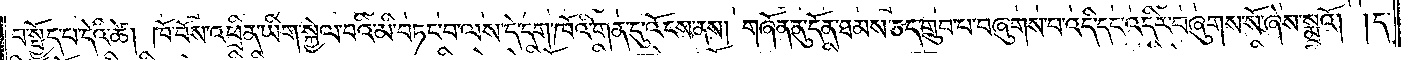བ་སྤྱོད་པ་དེའི་ཚེ། ཁོ་བོས་འཕྲིན་ཡིག་སྐྱེལ་བའི་མི་བཏང་བ་ལས་དེ་དག་ཁོའི་གན་དུ་འོངས་ནས། གཞོན་ནུ་དོན་ཐམས་ཅད་གྲུབ་པ་བཞུགས་པ་འདི་དང་འདིར་བཞུགས་སོ་ཞེས་སྨྲའོ། །ད་
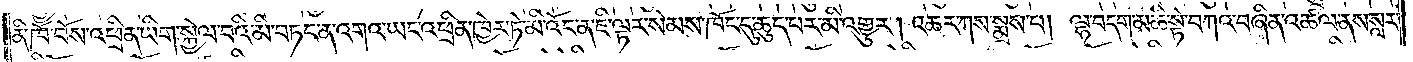ནི་ཁོ་བོས་འཕྲིན་ཡིག་སྐྱེལ་བའི་མི་བཏང་ན་འགའ་ཡང་འཕྲིན་ཁྱེར་ཏེ་མི་འོང་ན་ཇི་ལྟར་སེམས་ཁོང་དུ་ཆུད་པར་མི་འགྱུར། འཆར་ཀས་སྨྲས་པ། ལྷ་བདག་མཆི་སྟེ་བཀའ་བཞིན་འཚལ་ནས་སླར་
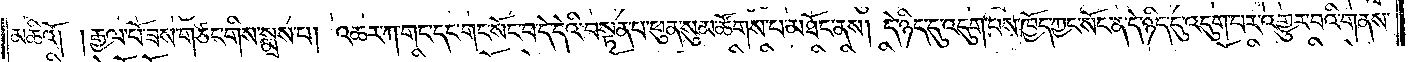མཆིའོ། །རྒྱལ་པོ་ཟས་གཙང་གིས་སྨྲས་པ། འཆར་ཀ་གང་དང་གང་སོང་བ་དེ་དེའི་བསྟན་པ་ཕུན་སུམ་ཚོགས་པ་མཐོང་ནས། དེ་ཉིད་དུ་འདུག་པས་ཁྱོད་ཀྱང་སོང་ན་དེ་ཉིད་དུ་འདུག་པར་འགྱུར་བའི་གནས་
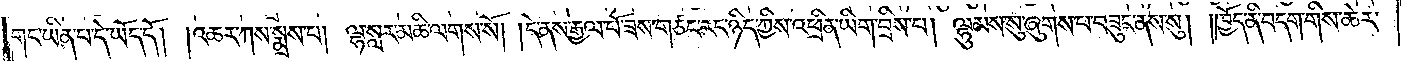གང་ཡིན་པ་དེ་ཡོད་དོ། །འཆར་ཀས་སྨྲས་པ། ལྷ་སླར་མཆི་ལགས་སོ། །དེ་ནས་རྒྱལ་པོ་ཟས་གཙང་རང་ཉིད་ཀྱིས་འཕྲིན་ཡིག་བྲིས་པ། ལྷུམས་སུ་ཞུགས་པ་བཟུང་ནས་སུ། །ཁྱོད་ནི་བདག་གིས་ཆེར་
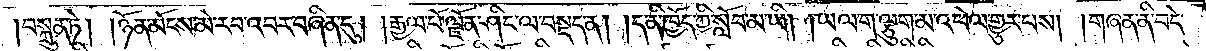བསྐྲུན་ཏེ། །ཉོན་མོངས་མེ་རབ་འབར་བཞིན་དུ། །རྒྱལ་པོ་ལྗོན་ཤིང་ལ་བསྡད་ན། །ད་ནི་ཁྱོད་ཀྱི་སློབ་མ་ཡི། །ཡལ་ག་ལྕུག་མ་འཕེལ་གྱུར་པས། །གཞན་ནི་བདེ་
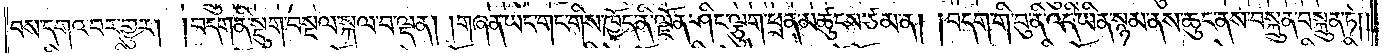བས་དགའ་བར་གྱུར། །བདག་ནི་སྡུག་བསྔལ་སྐལ་བ་ལྡན། །གཞན་ཡང་གང་གིས་ཁྱོད་ནི་ལྗོན་ཤིང་ལྕུག་ཕྲན་མཚུངས་ཙམ་ན། །བདག་གི་བུ་ནི་འདི་ཡིན་སྙམ་ནས་ཆུང་ནས་བསྐྲུན་བསྐྲུན་ཏེ། །
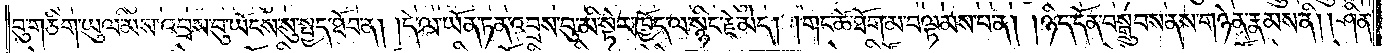བུ་གཅིག་ཡུལ་མིས་འབྲས་བུ་ཡོངས་སུ་སྤྱད་ཐོབ་ན། །དེ་ལ་ཡོན་ཏན་འབྲས་བུ་མི་སྟེར་ཁྱོད་ལ་སྙིང་རྗེ་མེད། །གང་ཚེ་ཐོག་མ་བལྟམས་པ་ན། །ཉིད་དོན་བསྒྲུབས་ནས་གཉེན་རྣམས་ནི། །ཤིན་
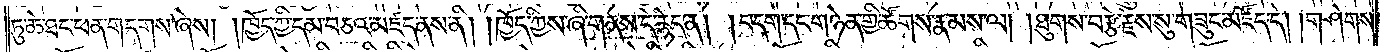ཏུ་ཆེ་ཐང་ཕན་གདགས་ཞེས། །ཁྱོད་ཀྱི་དམ་བཅའ་མཛད་ནས་ནི། །ཁྱོད་ཀྱིས་ཞི་གནས་དེ་རྙེད་ན། །བདག་དང་གཉེན་གྱི་ཚོགས་རྣམས་ལ། །ཐུགས་བརྩེ་རྗེས་སུ་གཟུང་མཛོད་དེ། །གཤེགས་
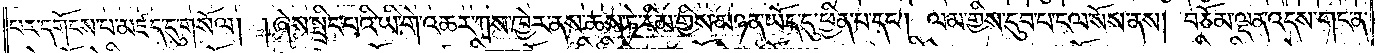པར་དགོངས་པ་མཛད་དུ་གསོལ། །ཞེས་སྤྲིང་པའི་ཡི་གེ་འཆར་ཀས་ཁྱེར་ནས་ཆས་ཏེ་རིམ་གྱིས་མཉན་ཡོད་དུ་ཕྱིན་པ་དང༌། ལམ་གྱིས་དུབ་པ་ངལ་སོས་ནས། བཅོམ་ལྡན་འདས་གང་ན་
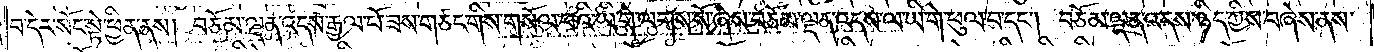བ་དེར་སོང་སྟེ་ཕྱིན་ནས། བཅོམ་ལྡན་འདས་རྒྱལ་པོ་ཟས་གཙང་གིས་གསོལ་པའི་ཡི་གེ་ལགས་སོ་ཞེས་བཅོམ་ལྡན་འདས་ལ་ཡི་གེ་ཕུལ་བ་དང༌། བཅོམ་ལྡན་འདས་ཉིད་ཀྱིས་བཞེས་ནས་
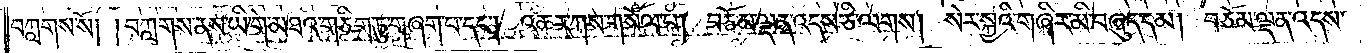བཀླགས་སོ། །བཀླགས་ནས་ཡི་གེ་མཐའ་གཅིག་ཏུ་གཞག་པ་དང༌། འཆར་ཀས་གསོལ་པ། བཅོམ་ལྡན་འདས་ཅི་ལགས། སེར་སྐྱའི་གཞིར་མི་བཞུད་དམ། བཅོམ་ལྡན་འདས་
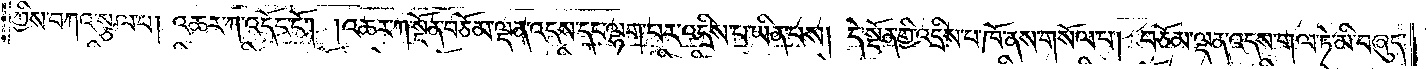ཀྱིས་བཀའ་སྩལ་པ། འཆར་ཀ་འདོང་ངོ༌། །འཆར་ཀ་སྔོན་བཅོམ་ལྡན་འདས་དང་ལྷག་པར་འདྲིས་པ་ཡིན་པས། དེ་སྔོན་གྱི་འདྲིས་པ་ཁོ་ནས་གསོལ་པ། བཅོམ་ལྡན་འདས་གལ་ཏེ་མི་བཞུད་
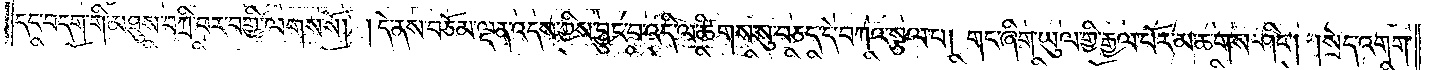དང་བདག་གི་མཐུས་བཀྲི་བར་བགྱི་ལགས་སོ། །དེ་ནས་བཅོམ་ལྡན་འདས་ཀྱིས་བྱུང་བ་འདི་ལ་ཚིགས་སུ་བཅད་དེ་བཀའ་སྩལ་པ། གང་ཞིག་ཡུལ་གྱི་རྒྱལ་པོར་མ་ཆགས་ཤིང༌། །སྲེད་འགག་
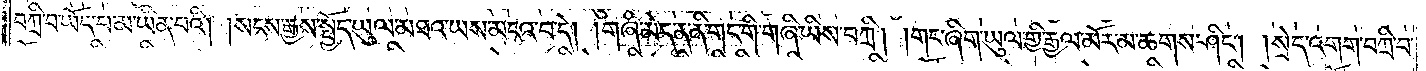བཀྲི་བ་ཡོད་པ་མ་ཡིན་པའི། །སངས་རྒྱས་སྤྱོད་ཡུལ་མཐའ་ཡས་མངའ་བ་དེ། །གཞི་མེད་ན་ནི་གང་གི་གཞི་ཡིས་བཀྲི། །གང་ཞིག་ཡུལ་གྱི་རྒྱལ་མོར་མ་ཆགས་ཤིང༌། །སྲེད་འགག་བཀྲི་བ་
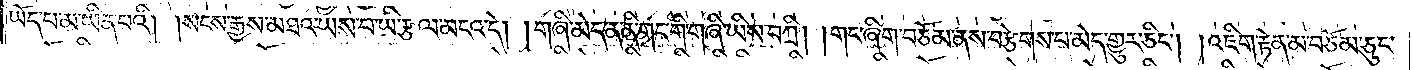ཡོད་པ་མ་ཡིན་པའི། །སངས་རྒྱས་མཐའ་ཡས་པ་ཡི་རྩལ་མངའ་དེ། །གཞི་མེད་ན་ནི་གང་གི་གཞི་ཡིས་བཀྲི། །གང་ཞིག་བཅོམ་ནས་བརྩེགས་པ་མེད་གྱུར་ཅིང༌། །འཇིག་རྟེན་མ་བཅོམ་ཅུང་
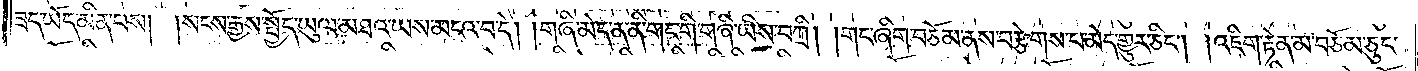ཟད་ཡོད་མིན་པས། །སངས་རྒྱས་སྤྱོད་ཡུལ་མཐའ་ཡས་མངའ་བ་དེ། །གཞི་མེད་ན་ནི་གང་གི་གཞི་ཡིས་བཀྲི། །གང་ཞིག་བཅོམ་ནས་བརྩེགས་པ་མེད་གྱུར་ཅིང༌། །འཇིག་རྟེན་མ་བཅོམ་ཅུང་
